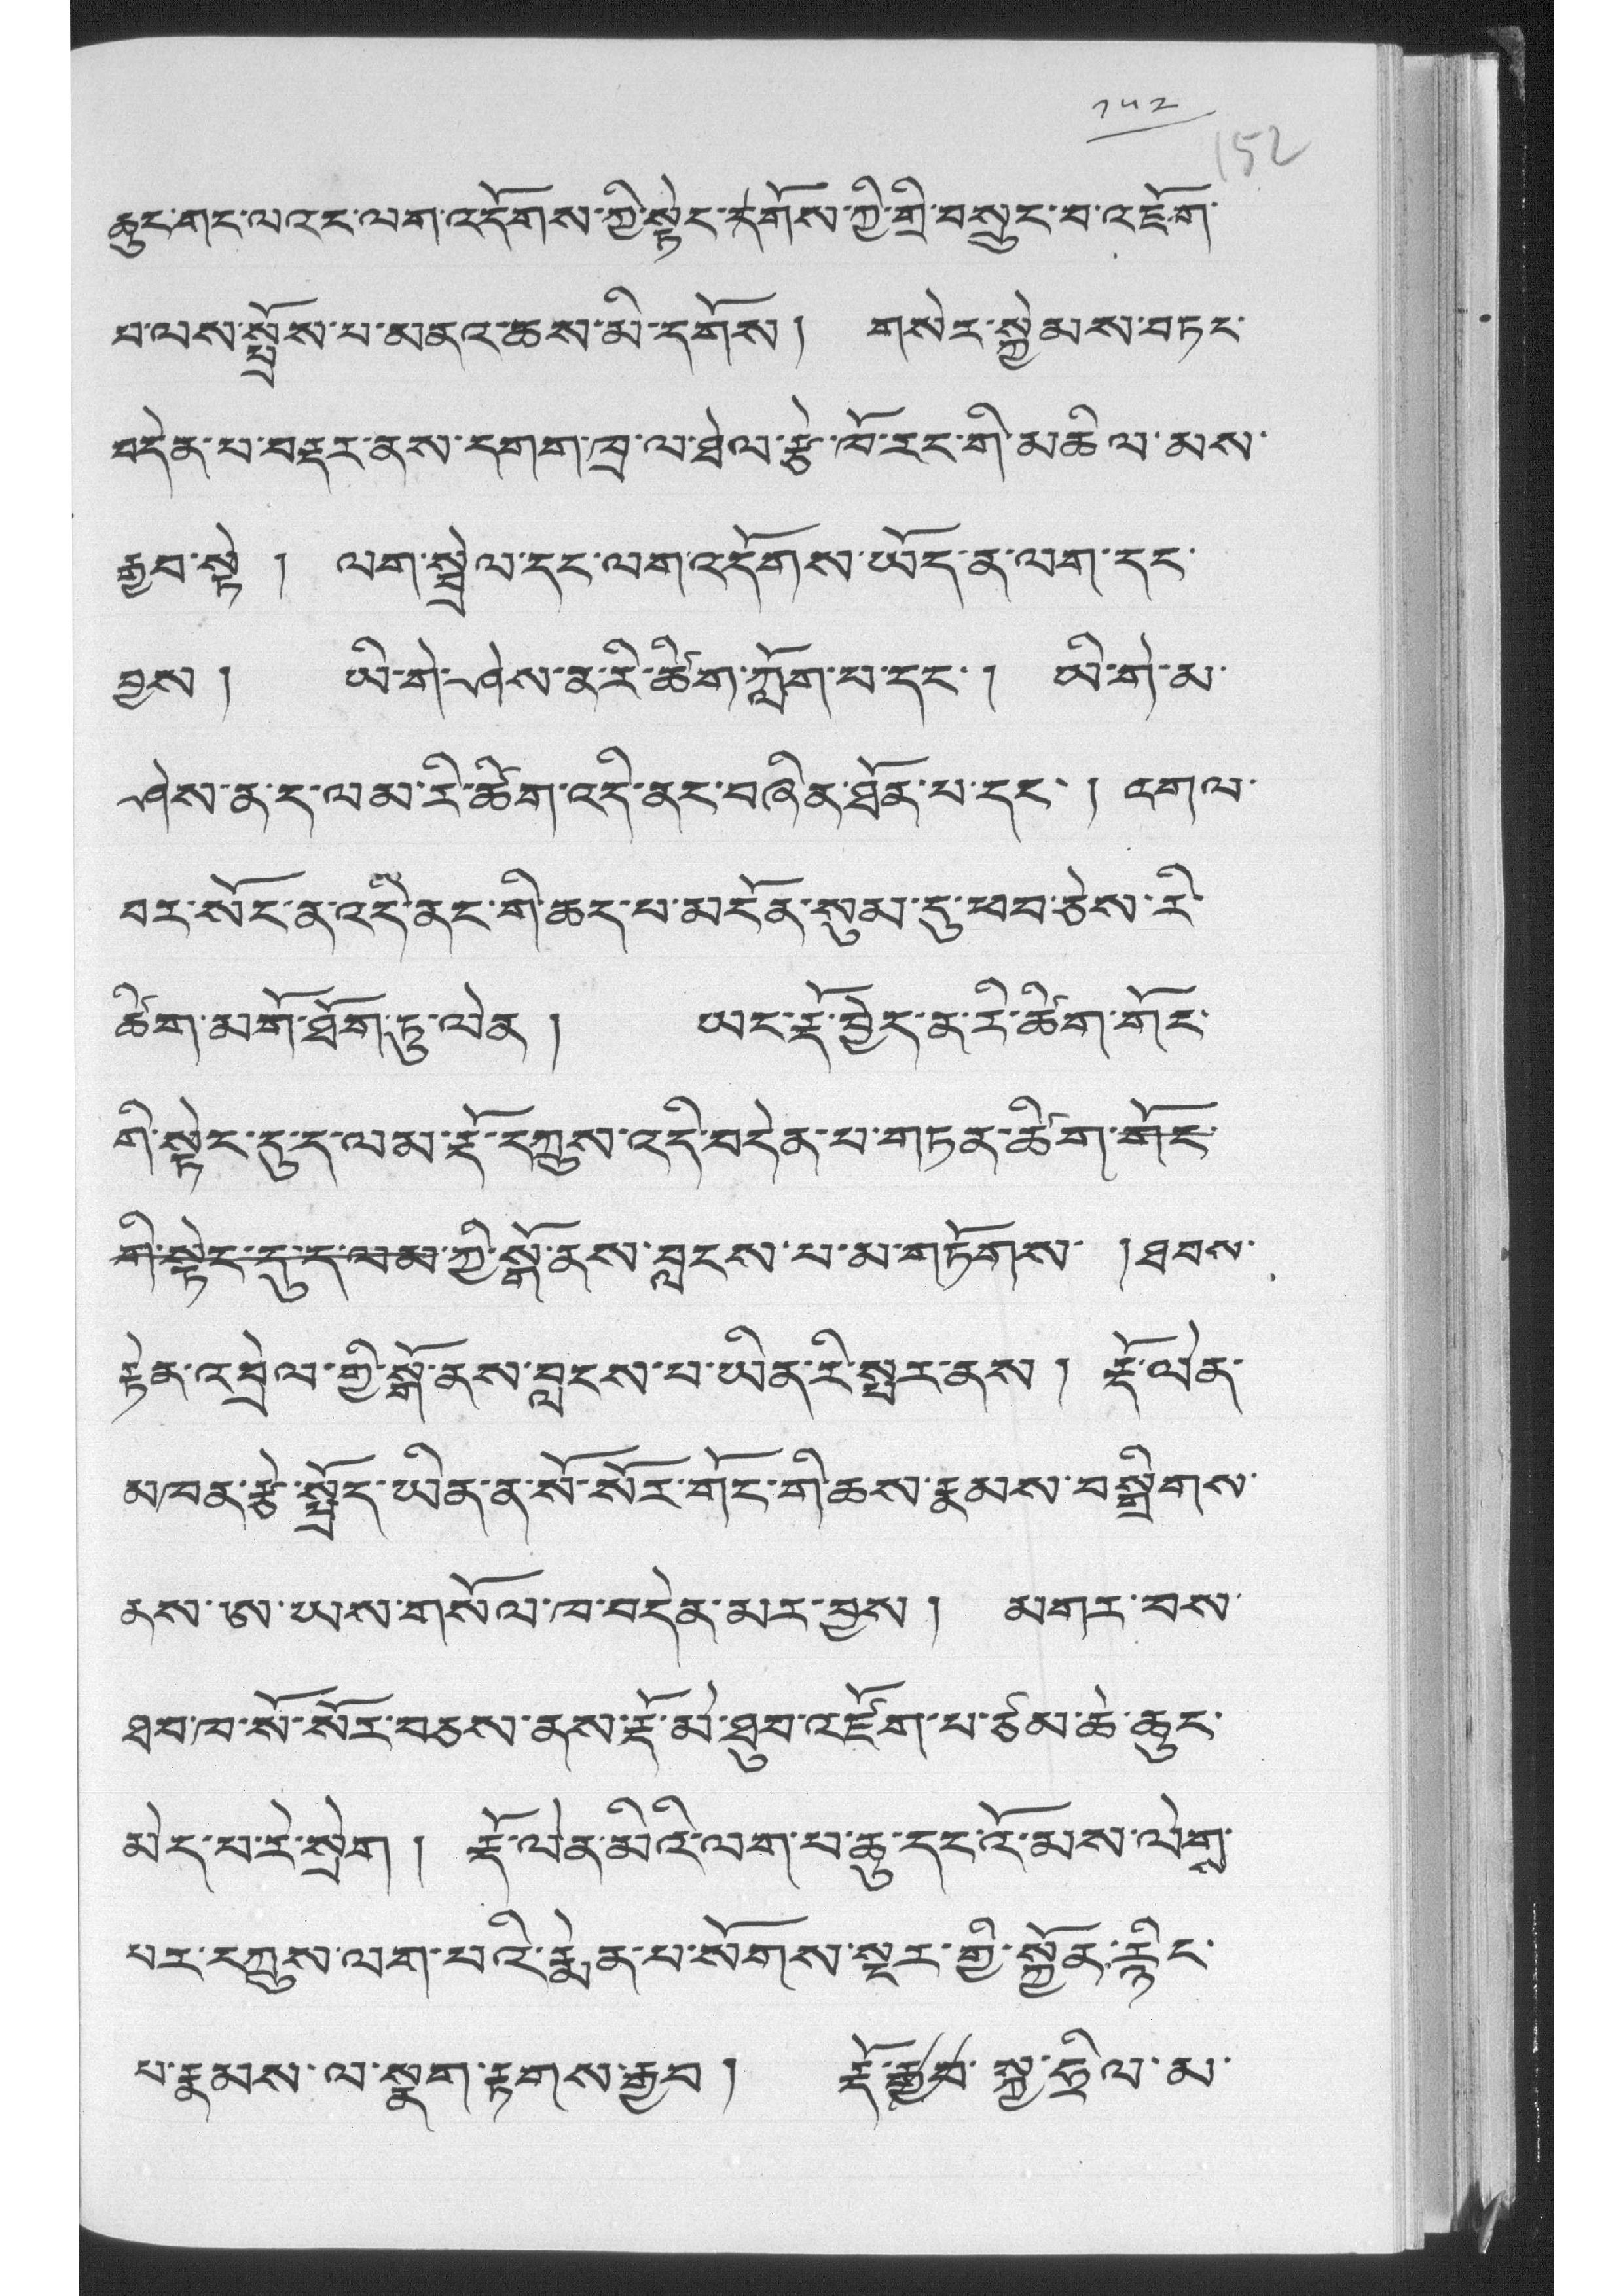༡༥༢
ཆུང་གང་ལའང་ལག་འདོགས་ཀྱི་སྟེང་དགོས་ཀྱི་གྲི་བསྲུང་བ་འཇོག་
བ་ལས་སྤྲོས་པ་མནའ་ཆས་མི་དགོས། གསེར་སྐྱེམས་བཏང་
བདེན་པ་བརྡར་ནས་དགག་ཁྲ་ལ་ཐེལ་རྩེ་ཁོ་རང་གི་མཆིལ་མས་
རྒྱབ་སྟེ ། ལག་སྦྲེལ་དང་ལག་འདོགས་ཡོད་ན་ལག་དང་
བྱས ། ཡི་གེ་ཤེས་ན་རི་ཚིག་ཀློག་པ་དང་། ཡི་གེ་མ་
ཤེས་ན་ད་ལམ་རི་ཚིག་འདི་ནང་བཞིན་ཐོན་པ་དང་། འགལ་
བར་སོང་ན་འདི་ནང་གི་ཆད་པ་མངོན་སུམ་དུ་ཕབ་ཅེས་རི་
ཚིག་མགོ་ཐོག་ཏུ་ལེན ། ཡང་རྡོ་བྱེད་ན་རི་ཚིག་གོང་
གི་སྟེང་དུ་ད་ལམ་རྡོ་དཀྲུས་འདི་བདེན་པ་གཏན་ཚིག་གོང་
གི་སྟེང་དུ་ད་ལམ་ཀྱི་སྒོ་ནས་བླངས་པ་མ་གཏོགས་ །ཐབས་
རྟེན་འབྲེལ་གྱི་སྒོ་ནས་བླངས་པ་ཡིན་རི་སྤར་ནས། རྡོ་ལེན་
མཁན་རྩེ་སྤྲོད་ཡིན་ན་སོ་སོར་གོང་གི་ཆས་རྣམས་བསྒྲིགས་
ནས་ཨ་ཡས་གསོལ་ཁ་བདེན་མར་བྱས། མགར་བས་
ཐབ་ཁ་སོ་སོར་བཅས་ནས་རྡོ་མེ་ཐུབ་འཛོག་པ་ཙམ་ཆེ་ཆུང་
མེད་པ་རེ་སྲེག ། རྡོ་ལེན་མིའི་ལག་པ་ཆུ་དང་འོ་མས་ལེགས་
པར་དཀྲུས་ལག་པའི་རྨེན་པ་སོགས་སྔར་གྱི་སྐྱོན་རྙིང་
པ་རྣམས་ལ་སྣག་རྟགས་རྒྱབ། རྡོ་རྒྱབ་སྐྱ་ཧྲིལ་མ་
